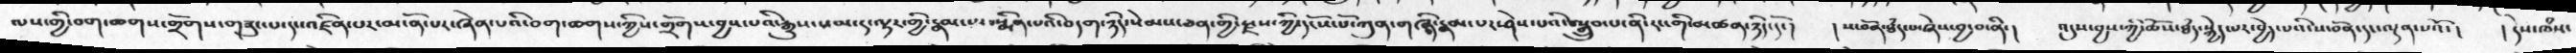ལས་གྱི་བག་ཆགས་གྲོགས་གཟུང་པ་དང་འཛིན་པར་མངོན་པར་ཞེན་པའི་བག་ཆགས་ཀྱིས་གྲོགས་བྱས་པའི་རྒྱུས་སམ་ད་ལྟར་གྱི་རྣམ་པར་སྨིན་པའི་བདག་ཉིད་སེམས་ཅན་གྱི་རྫས་ཀྱི་དངོས་པོ་ཀུན་གཞིའ་རྣམ་པར་ཤེས་པའི་བསྒྲུབ་པ་ནི་རང་གི་མཚན་ཉིད་དོ་།  །ས་བོན་ཐདཾ་པ་ཞེས་བྱ་བ་ནི་།  འདུས་བྱས་ཀྱི་ཆོས་ཐདཾ་སྐྱེད་པར་བྱེད་པའི་ས་བོན་དང་ལྡན་པའོ་།  །དེས་ཁཾས་
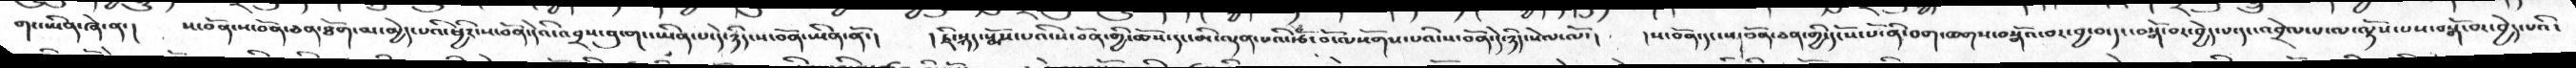གང་ཡིན་ཞེ་ན་།   ས་བོན་ས་བོན་ཅན་ཐོག་མ་མྱེད་པའི་ཕྱིར་ས་བོན་དེའི་འབྲས་བུ་གང་ཡིན་པ་དེ་ཉིད་ས་བོན་ཡིན་ནོ་།  །ཇི་སྐད་སྨོས་པའི་ས་བོན་གྱི་ཆོས་དང་མི་ལྡན་པའི་རྩོ་བོ་ལསོགས་པའི་ས་བོན་དེ་ཉིད་སེལ་ལོ་།  །ས་བོན་དང་ས་བོན་ཅན་གྱི་དངོས་པོ་ནི་བག་ཆགས་བསྒོའ་བར་བྱ་བ་དང་བསྒོ་བར་བྱེད་པ་དང་འབྲེལ་པ་ལ་ལྟོས་པས་བསྒོ་བར་བྱེད་པའི་
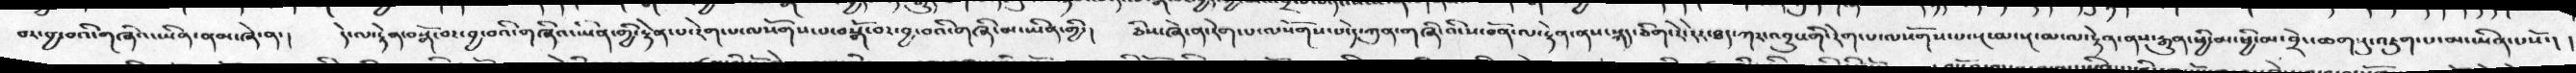བར་བྱ་བའི་གཞིའ་ཡིན་ནམ་ཞེ་ན་།  དེ་ལ་རྟེན་བསྒོ་བར་བྱ་བའི་གཞིའ་ཡིན་གྱི་རྟེན་པ་རེག་པ་ལསོགས་པ་བསྒོ་བར་བྱ་བའི་གཞི་མ་ཡིན་གྱི་།   ཅིས་ཞེ་ན་རེག་པ་ལསོགས་པ་དེ་ཀུན་གཞི་འི་ས་བོན་ལ་རྟེན་ནས་སྐད་ཅིག་རེ་རེར་ཐད་ཀར་འབྱུང་གི་རེག་པ་ལསོགས་པ་སྔ་མ་སྔ་མ་ལ་རྟེན་ནས་རྒྱུན་ཕྱི་མ་ཕྱི་མ་བྲེང་ཆག་དུ་འཇུག་པ་མ་ཡིན་པསོ་།
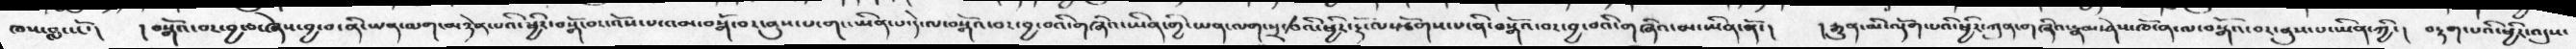ཁས་བླང་ངོ་།  །བསྒོའ་བར་བྱ་བ་ཞེས་བྱ་བ་ནི་ཡན་ལག་མཉེན་པའི་ཕྱིར་བསྒོ་བར་འོས་པ་འམ་བསྒོ་བར་ནུས་པ་གང་ཡིན་པ་དེ་ལ་བསྒོའ་བར་བྱ་བའི་གཞིའ་ཡིན་གྱི་ཡན་ལག་སྲ་བའི་ཕྱིར་རྡོ་ལསྩོགས་པ་ནི་བསྒོའ་བར་བྱ་བའི་གཞིའ་མ་ཡིན་ནོ་།   །རྒྱུ་མི་ལྡོག་པའི་ཕྱིར་ཀུན་གཞིའ་རྣམ་ཤེས་ཁོ་ན་ལ་བསྒོའ་བར་ནུས་པ་ཡིན་ཀྱི་།  བརྟག་པའི་ཕྱིར་འདུས་
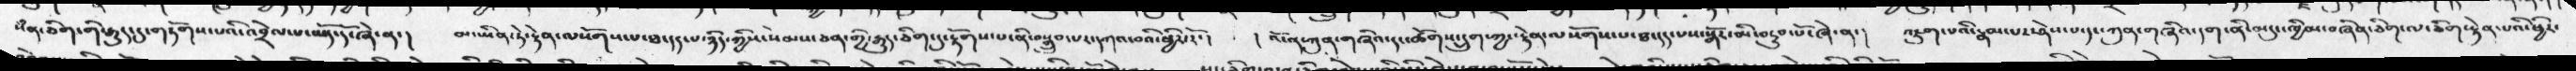སེཾན་ཅིག་གི་རྒྱུད་དུ་གཏོགས་པའི་འབྲེལ་པ་ཡོད་དོ་ཞེ་ན་།   མ་ཡིན་ཏེ་རྟེན་ལསོགས་པ་ཐ་དད་པ་ཉིད་ཀྱིས་སེམས་ཅན་གྱི་རྒྱུད་ཅིག་དུ་རྟོགས་པ་ནི་བསྒྲུབ་པར་དགའ་བའི་ཕྱིར་རོ་།  །འོ་ན་ཀུན་གཞིའ་དང་ཚོགས་དྲུག་ཀྱང་རྟེན་ལསོགས་པ་ཐ་དད་པས་སྒོར་མི་བཏུབ་པོ་ཞེ་ན་།   འཇུག་པའི་རྣམ་པར་ཤེས་པ་དང་ཀུན་གཞིའ་དག་ནི་མདུང་ཁྱིམ་བཞིན་ཅིག་ལ་ཅིག་རྟེན་པའི་ཕྱིར་
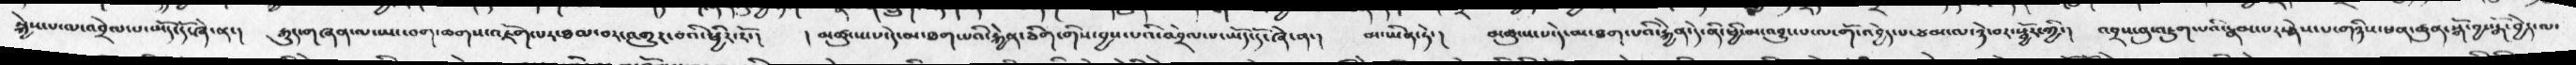སྐྱེས་པ་ལ་འབྲེལ་པ་ཡོད་དོ་ཞེ་ན་།   རྒུད་གཞན་ལ་ཡང་བག་ཆགས་འཇོག་པར་ཐལ་བར་འགྱུར་བའི་ཕྱིར་རོ་།  །མཚུངས་པ་དེ་མ་ཐག་པའི་རྐྱེན་ཅིག་གིས་བྱས་པའི་འབྲེལ་བ་ཡོད་དོ་ཞེ་ན་།  མ་ཡིན་ཏེ་།  མཚུངས་པ་དེ་མ་ཐག་པའི་རྐྱེན་དེ་ནི་ཕྱི་མ་འབྱུང་པ་ལ་གོ་འབྱེད་པ་ཙམ་ལ་ཉེ་བར་སྦྱོར་གྱི་།   འབྲས་བུ་འཇུག་པའི་རྣམ་པར་ཤེས་པ་གཉིས་ཕན་ཚུན་སྒོ་བྱ་སྒོ་བྱེད་ལ་
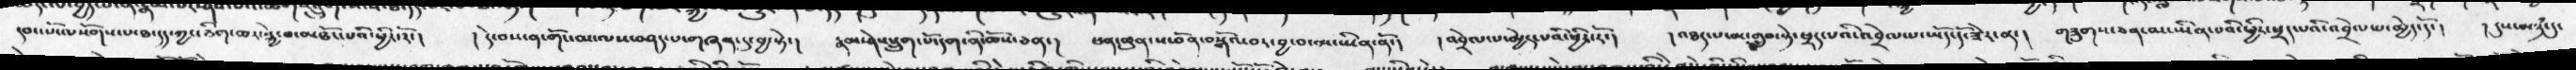དབང་པོ་ལསོགས་པ་ཐ་དད་ཀྱང་ཅིག་ཆར་སྐྱེ་བ་མཐོང་པའི་ཕྱིར་རོ་།    །དེ་བས་ན་གོང་མ་ལས་བཤད་པ་གཞན་དུ་བྱ་སྟེ་།   རྣམ་ཤེས་དྲུག་པོ་དག་ནི་ཆོས་ཅན་།   ཕན་ཚུན་ས་བོན་བསྒོའ་བར་བྱ་བ་མ་ཡིན་ནོ་།   །འབྲེལ་པ་མྱེད་པའི་ཕྱིར་རོ་།   །འཐད་པ་མ་གྲུབ་སྟེ་ཕྲད་པའི་འབྲེལ་པ་ཡོད་དོ་ཟེར་ན་།   གཟུགས་ཅན་མ་ཡིན་པའི་ཕྱིར་ཕྲད་པའི་འབྲེལ་པ་མྱེད་དོ་།   །དུས་མཉཾ་དུ་
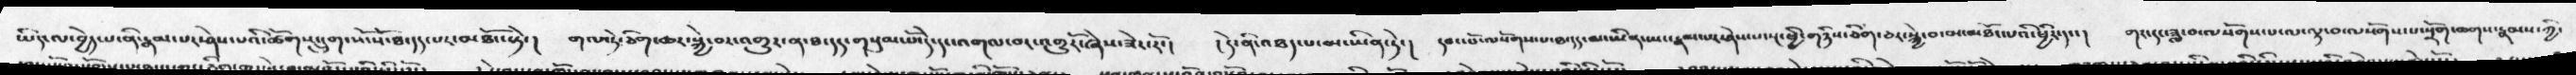ཡིད་ལ་བྱེད་པ་ནི་རྣམ་པར་ཤེས་པའི་ཚོགས་དྲུག་སོ་སོ་ཐ་དད་པར་མཐོང་སྟེ་།    གལ་ཏེ་ཅིག་ཆར་སྐྱེ་བར་འགྱུར་ན་ཐ་དད་གསུམ་པོ་དེ་དང་འགལ་བར་འགྱུརོ་ཞེས་ཟེར་རོ་།   །དེ་ནི་འཐད་པ་མ་ཡིན་ཏེ་།   དབང་པོ་ལསོགས་པ་ཐ་དད་མ་ཡིན་ཡང་རྣམ་པར་ཤེས་པ་སྔ་ཕྱི་གཉིས་ཅིག་ཅར་སྐྱེ་བ་མ་མཐོང་པའི་ཕྱིར་དང་།    གར་དང་ཟླ་བ་ལསོགས་པ་ལ་ལྟ་བ་ལསོགས་པ་སྲོག་ཆགས་རྣམས་ཀྱི་
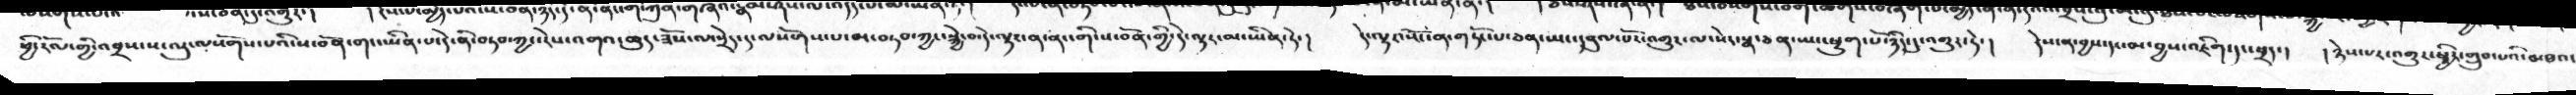ཕྱི་རོལ་གྱི་འབྲས་ས་ལུ་ལསོགས་པའི་ས་བོན་གང་ཡིན་པ་དེ་ནི་བཏབ་ཀྱང་རེས་འགའ་ཆུད་ཟོས་ལ་སྲེད་དུ་ལསོགས་པ་མ་བཏབ་ཀྱང་སྐྱེ་བ་དེ་ལྟར་ན་ནང་གི་ས་བོན་གྱི་དེ་ལྟར་མ་ཡིན་ཏེ་།    དེ་ལྟར་སོང་ན་གཏོང་པ་ཅན་ཡང་དབུལ་པོར་འགྱུར་ལ་སེར་སྣ་ཅན་ཡང་ཕྱུག་པོ་ཉིད་དུ་འགྱུར་ཏེ་།   དེས་ན་བྱས་དང་མ་བྱས་འཇིག་དང་ཕྲད་།    །ཉེས་པར་འགྱུར་ཕྱིར་གྲུབ་པའི་མཐའ་
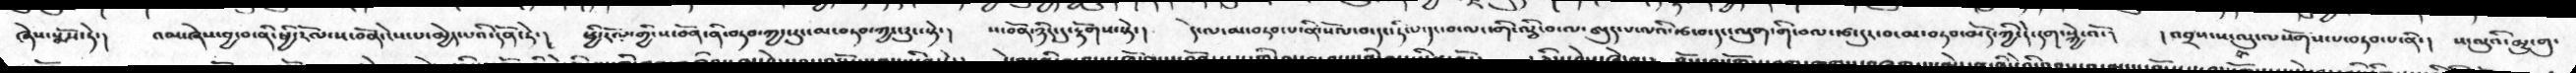ཞེས་སྨོས་ཏེ་།   འམ་ཞེས་བྱ་བ་ནི་ཕྱི་རོལ་ས་བོན་ངེས་པ་མྱེད་པའི་དོན་ཏེ་།   ཕྱི་རོལ་གྱི་ས་བོན་ནི་བཏབ་ཀྱང་རུང་མ་བཏབ་ཀྱང་རུང་སྟེ་།   ས་བོན་ཉིད་དུ་རྟོགས་སྟེ་།   དེ་ལ་མ་བཏབ་པ་ནི་སོལ་བ་དང་ཏིལ་དང་བ་ལང་གི་ལྕི་བ་ལ་ཨུད་པ་ལའི་རྩ་བ་དང་ལུག་གི་བལ་རྩ་དུར་བ་མ་བཏབ་མོད་ཀྱི་དེ་དག་སྐྱེ་འོ་།   །འབྲས་ས་ལུ་ལསོགས་པ་བཏབ་པ་ནི་།  ས་ལུའི་མྱུ་གུ་
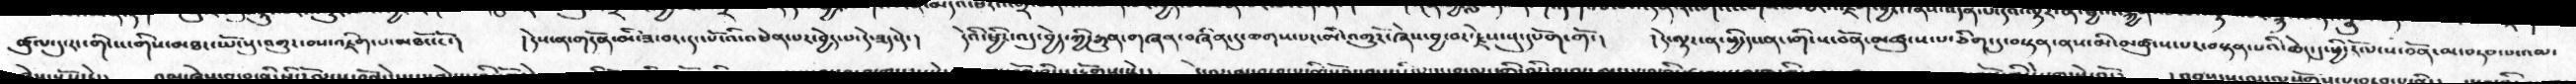ཚུལ་དུ་རང་གི་ངང་གིས་མཐར་ཡོངསུ་འགྱུར་བས་འཇིག་པ་མཐོང་ངོ་།  །དེས་ན་གདོན་མི་ཟ་བར་དང་པོ་འི་འཕེན་པར་བྱེད་པ་དེ་ཟད་དེ་།  དེའི་ཕྱིར་འདུ་བྱེད་ཀྱི་རྒྱུན་གཞན་བཞིན་དུ་ཆགས་པར་མི་འགྱུརོ་ཞེས་བྱ་བར་རྗེས་སུ་དཔོག་གོ་།  །དེ་ལྟར་ན་ཕྱི་དང་ནང་གི་ས་བོན་མཚུངས་པ་ཅིག་དུ་བསྟན་ནས་མི་མཚུངས་པར་བསྟན་པའི་ཆེད་དུ་ཕྱི་རོལ་ས་བོན་མ་བཏབ་པ་འམ་
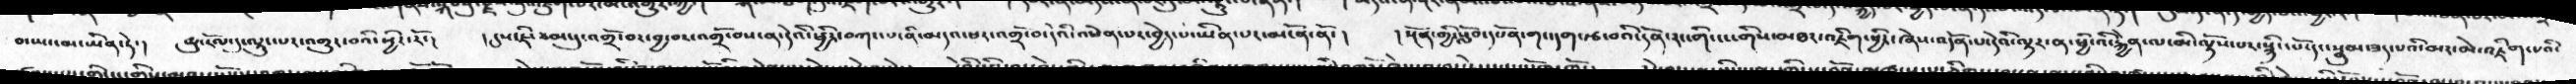བ་ཡང་མ་ཡིན་ཏེ་།  ཚུ་རོལ་དུ་ལྟུང་པར་འགྱུར་བའི་ཕྱིར་རོ་།  །དུས་ཇི་ཙམ་དུ་འགྲོ་བར་བྱ་བར་འགྲོ་བས་ན་དེའི་ཕྱིར་བཀང་པ་ནི་མདའ་ཕར་འགྲོ་བ་དེའི་འཕེན་པར་བྱེད་པ་ཡིན་པར་མངོན་ནོ་།  །སྔོན་གྱི་སློབ་དཔོན་གང་དག་རྩ་བའི་དོན་རང་གི་ངང་གིས་མཐར་འཇིག་ཕྱིར་ཞེས་འདོན་པ་དེའི་ལྟར་ན་ཕྱི་འི་རྐྱེན་ལ་མི་ལྟོས་པར་སྙིང་པོ་དང་སྣུམ་ཟད་པའི་མར་མེ་འཇིག་པའི་
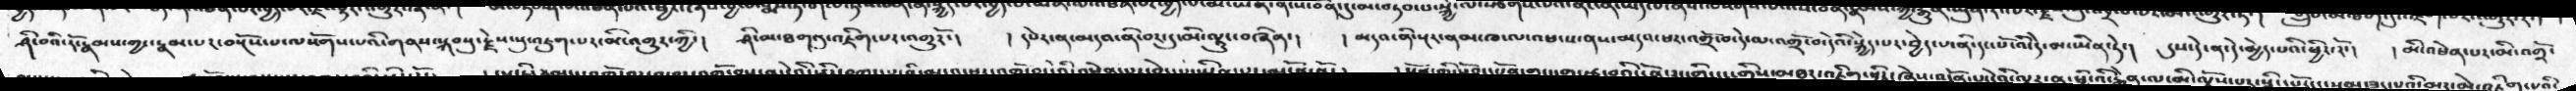ཤི་བའི་རོ་རྣམས་ཀྱང་རྣམ་པར་བསྔོས་པ་ལསོགས་པའི་གནས་སྐབསུ་རྗེས་སུ་འཇུག་པར་མི་འགྱུར་གྱི་།  ཤི་མ་ཐག་དུ་འཇིག་པར་འགྱུརོ་།  །དཔེར་ན་མདའ་ནི་བར་དུ་མི་ལྟུང་བཞིན་།  །མདའ་ནི་སྔར་ནམ་ཁ་ལ་འཕངས་ནས་མདའ་ཕར་འགྲོ་བ་དེ་ལ་འགྲོ་བ་དེའི་སྐྱེད་པར་བྱེད་པ་ནི་དང་པོ་འི་དེ་མ་ཡིན་ཏེ་།  དུས་དེ་ན་དེ་མྱེད་པའི་ཕྱིར་རོ་།  །མི་འཕེན་པར་མི་འགྲོ་
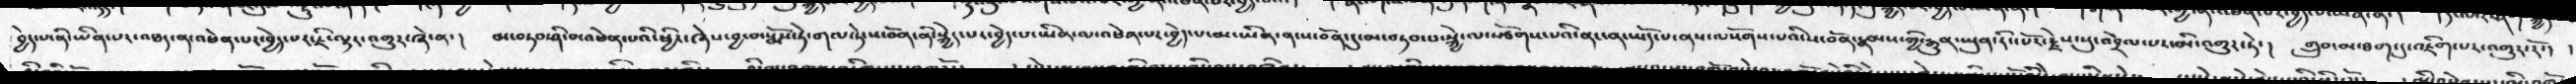བྱེད་པ་ནི་ཡིན་པར་འཐད་ན་འཕེན་པར་བྱེད་པར་ཇི་ལྟར་འགྱུར་ཞེ་ན་།  མ་བཏབ་ཤི་བ་འཕེན་པའི་ཕྱིར་ཞེས་བྱ་བ་སྨོས་ཏེ་གལ་ཏེ་ས་བོན་ནི་སྐྱེད་པར་བྱེད་པ་ཡིན་ལ་འཕེན་པར་བྱེད་པ་མ་ཡིན་ན་ས་བོན་དུ་མ་བཏབ་པ་སྐྱེ་ལ་སྩོགས་པའི་ནང་ན་ཡོད་པ་ནས་ལསོགས་པའི་ས་བོན་རྣམས་ཀྱི་རྒྱུན་ཡུན་རིང་པོར་རྗེས་སུ་འབྲེལ་པར་མི་འགྱུར་ཏེ་།  གྲུབ་མ་ཐག་དུ་འཇིགས་པར་འགྱུར་རོ་།
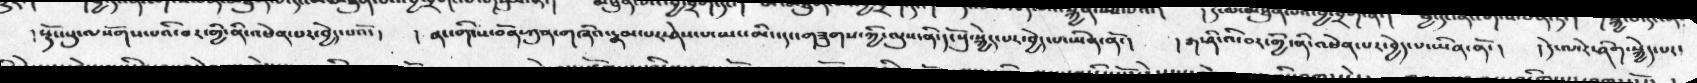།སྡོང་པུ་ལསོགས་པའི་བར་གྱི་ནི་འཕེན་པར་བྱེད་པའོ་།  །ནང་གི་ས་བོན་ཀུན་གཞིའ་རྣམ་པར་ཤེས་པ་ཡང་མིང་དང་གཟུགས་ཀྱི་ལུས་ནི་དངོསུ་སྐྱེད་པར་བྱེད་པ་ཡིན་ནོ་།  །རྒ་ཤི་འི་བར་གྱི་ནི་འཕེན་པར་བྱེད་པ་ཡིན་ནོ་།  །དེ་ལ་རེ་ཞིག་སྐྱེད་པར་
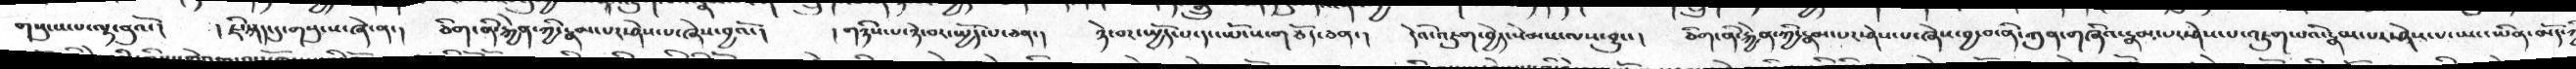གསུངས་པ་ལྟ་བུའོ་།  །ཇི་སྐད་དུ་གསུངས་ཞེ་ན་།  ཅིག་ནི་རྐྱེན་ཀྱི་རྣམ་པར་ཤེས་པ་ཞེས་བྱའོ་།  །གཉིས་པ་ཉེ་བར་སྤྱོད་པ་ཅན་།  ཉེ་བར་སྤྱོད་པ་དང་ཡོངས་གཅོད་ཅན་།  དེའི་འཇུག་བྱེད་སེམས་ལས་བྱུང་།  ཅིག་ནི་རྐྱེན་ཀྱི་རྣམ་པར་ཤེས་པ་ཞེས་བྱ་བ་ནི་ཀུན་གཞིའ་རྣམ་པར་ཤེས་པ་འཇུག་པའི་རྣམ་པར་ཞེས་པ་ཡང་ཡིན་མདོ་
